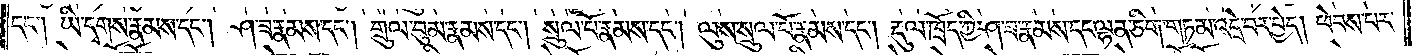དང༌། ཡི་དྭགས་རྣམས་དང༌། ཤ་ཟ་རྣམས་དང༌། གྲུལ་བུམ་རྣམས་དང༌། སྲུལ་པོ་རྣམས་དང༌། ལུས་སྲུལ་པོ་རྣམས་དང༌། རྡུལ་ཁྲོད་ཀྱི་ཤ་ཟ་རྣམས་དང་ལྷན་ཅིག་གཏམ་འདྲེ་བར་བྱེད། ཕེབས་པར་
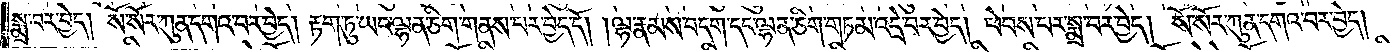སྨྲ་བར་བྱེད། སོ་སོར་ཀུན་དགའ་བར་བྱེད། རྟག་ཏུ་ཡང་ལྷན་ཅིག་གནས་པར་བྱེད་དོ། །ལྷ་རྣམས་བདག་དང་ལྷན་ཅིག་གཏམ་འདྲེ་བར་བྱེད། ཕེབས་པར་སྨྲ་བར་བྱེད། སོ་སོར་ཀུན་དགའ་བར་བྱེད།
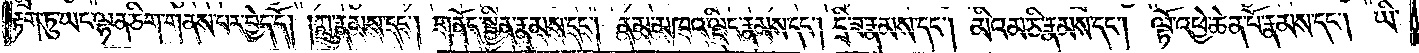རྟག་ཏུ་ཡང་ལྷན་ཅིག་གནས་པར་བྱེད་དོ། །ཀླུ་རྣམས་དང༌། གནོད་སྦྱིན་རྣམས་དང༌། ནམ་མཁའ་ལྡིང་རྣམས་དང༌། དྲི་ཟ་རྣམས་དང༌། མིའམ་ཅི་རྣམས་དང༌། ལྟོ་འཕྱེ་ཆེན་པོ་རྣམས་དང༌། ཡི་
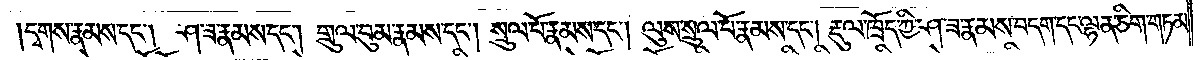དྭགས་རྣམས་དང༌། ཤ་ཟ་རྣམས་དང༌། གྲུལ་བུམ་རྣམས་དང༌། སྲུལ་པོ་རྣམས་དང༌། ལུས་སྲུལ་པོ་རྣམས་དང༌། རྡུལ་ཁྲོད་ཀྱི་ཤ་ཟ་རྣམས་བདག་དང་ལྷན་ཅིག་གཏམ་
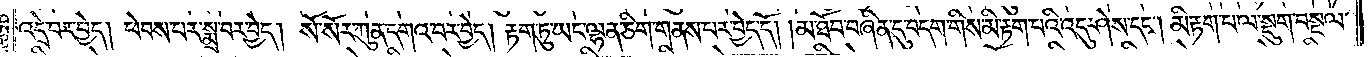འདྲེ་བར་བྱེད། ཕེབས་པར་སྨྲ་བར་བྱེད། སོ་སོར་ཀུན་དགའ་བར་བྱེད། རྟག་ཏུ་ཡང་ལྷན་ཅིག་གནས་པར་བྱེད་དོ། །མ་ཐོབ་བཞིན་དུ་བདག་གིས་མི་རྟག་པའི་འདུ་ཤེས་དང༌། མི་རྟག་པ་ལ་སྡུག་བསྔལ་
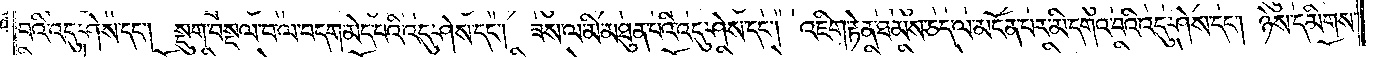བའི་འདུ་ཤེས་དང༌། སྡུག་བསྔལ་བ་ལ་བདག་མེད་པའི་འདུ་ཤེས་དང༌། ཟས་ལ་མི་མཐུན་པའི་འདུ་ཤེས་དང༌། འཇིག་རྟེན་ཐམས་ཅད་ལ་མངོན་པར་མི་དགའ་བའི་འདུ་ཤེས་དང༌། ཉེས་དམིགས་
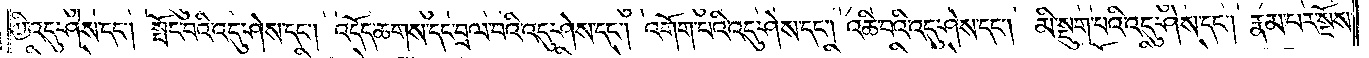ཀྱི་འདུ་ཤེས་དང༌། སྤོང་བའི་འདུ་ཤེས་དང༌། འདོད་ཆགས་དང་བྲལ་བའི་འདུ་ཤེས་དང༌། འགོག་པའི་འདུ་ཤེས་དང༌། འཆི་བའི་འདུ་ཤེས་དང༌། མི་སྡུག་པའི་འདུ་ཤེས་དང༌། རྣམ་པར་སྔོས་
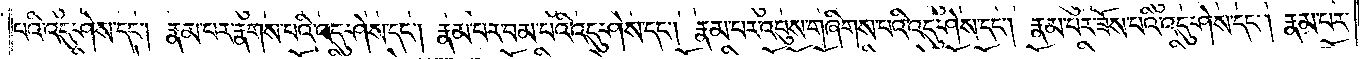པའི་འདུ་ཤེས་དང༌། རྣམ་པར་རྣགས་པའི་འདུ་ཤེས་དང༌། རྣམ་པར་བམ་པའི་འདུ་ཤེས་དང༌། རྣམ་པར་འབུས་གཞིགས་པའི་འདུ་ཤེས་དང༌། རྣམ་པར་ཟོས་པའི་འདུ་ཤེས་དང༌། རྣམ་པར་
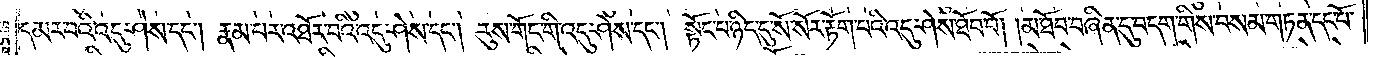དམར་བའི་འདུ་ཤེས་དང༌། རྣམ་པར་འཐོར་བའི་འདུ་ཤེས་དང༌། རུས་གོང་གི་འདུ་ཤེས་དང༌། སྟོང་པ་ཉིད་དུ་སོ་སོར་རྟོག་པའི་འདུ་ཤེས་ཐོབ་བོ། །མ་ཐོབ་བཞིན་དུ་བདག་གིས་བསམ་གཏན་དང་པོ་
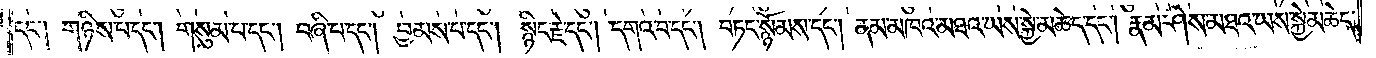དང༌། གཉིས་པ་དང༌། གསུམ་པ་དང༌། བཞི་པ་དང༌། བྱམས་པ་དང༌། སྙིང་རྗེ་དང༌། དགའ་བ་དང༌། བཏང་སྙོམས་དང༌། ནམ་མཁའ་མཐའ་ཡས་སྐྱེ་མཆེད་དང༌། རྣམ་ཤེས་མཐའ་ཡས་སྐྱེ་མཆེད་
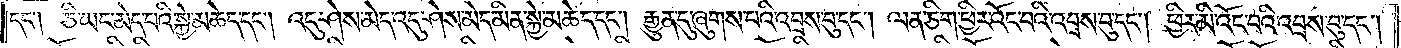དང༌། ཅི་ཡང་མེད་པའི་སྐྱེ་མཆེད་དང༌། འདུ་ཤེས་མེད་འདུ་ཤེས་མེད་མིན་སྐྱེ་མཆེད་དང༌། རྒྱུན་དུ་ཞུགས་པའི་འབྲས་བུ་དང༌། ལན་ཅིག་ཕྱིར་འོང་བའི་འབྲས་བུ་དང༌། ཕྱིར་མི་འོང་བའི་འབྲས་བུ་དང༌།
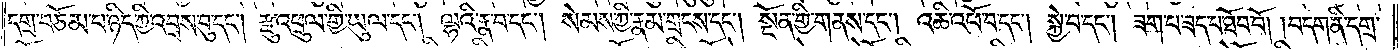དགྲ་བཅོམ་པ་ཉིད་ཀྱི་འབྲས་བུ་དང༌། རྫུ་འཕྲུལ་གྱི་ཡུལ་དང༌། ལྷའི་རྣ་བ་དང༌། སེམས་ཀྱི་རྣམ་གྲངས་དང༌། སྔོན་གྱི་གནས་དང༌། འཆི་འཕོ་བ་དང༌། སྐྱེ་བ་དང༌། ཟག་པ་ཟད་པ་ཐོབ་བོ། །བདག་ནི་དགྲ་
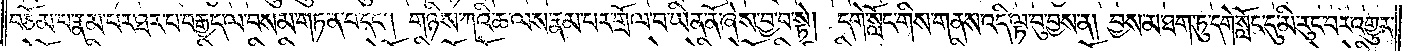བཅོམ་པ་རྣམ་པར་ཐར་པ་བརྒྱད་ལ་བསམ་གཏན་པ་དང༌། གཉིས་ཀའི་ཆ་ལས་རྣམ་པར་གྲོལ་བ་ཡིན་ནོ་ཞེས་བྱ་བ་སྟེ། དགེ་སློང་གིས་གནས་འདི་ལྟ་བུ་བྱས་ན། བྱས་མ་ཐག་ཏུ་དགེ་སློང་དུ་མི་རུང་བར་འགྱུར་
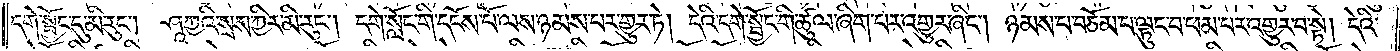དགེ་སྦྱོང་དུ་མི་རུང༌། ཤཱཀྱའི་སྲས་ཀྱིར་མི་རུང༌། དགེ་སློང་གི་དངོས་པོ་ལས་ཉམས་པར་གྱུར་ཏེ། དེའི་དགེ་སྦྱོང་གི་ཚུལ་ཞིག་པར་འགྱུར་ཞིང༌། ཉམས་པ་བཅོམ་པ་ལྟུང་བ་ཕམ་པར་འགྱུར་བ་སྟེ། དེའི་
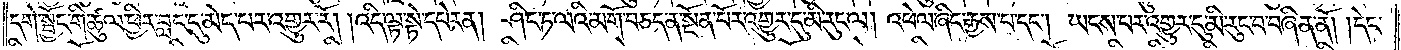དགེ་སྦྱོང་གི་ཚུལ་ཕྱིར་བླང་དུ་མེད་པར་འགྱུར་རོ། །འདི་ལྟ་སྟེ་དཔེར་ན།   ཤིང་ཏ་ལའི་མགོ་བཅད་ན་སྔོན་པོར་འགྱུར་དུ་མི་རུང་ལ། འཕེལ་ཞིང་རྒྱས་པ་དང༌། ཡངས་པར་འགྱུར་དུ་མི་རུང་བ་བཞིན་ནོ། །དེང་
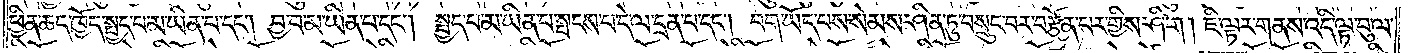ཕྱིན་ཆད་ཁྱོད་སྤྱད་པ་མ་ཡིན་པ་དང༌། བྱ་བ་མ་ཡིན་པ་དང༌། སྤྱད་པ་མ་ཡིན་པ་སྤངས་པ་དེ་ལ་དྲན་པ་དང༌། བག་ཡོད་པས་སེམས་ཤིན་ཏུ་བསྲུང་བར་བརྩོན་པར་གྱིས་ཤིག ། ཇི་ལྟར་གནས་འདི་ལྟ་བུ་ལ་
